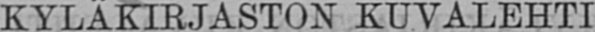KYLÄKIRJASTON KUVALEHTI.
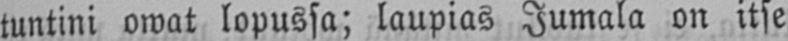tuntini owat lopussa; laupias Jumala on itse
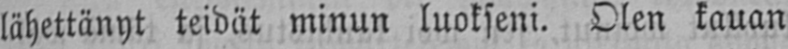lähettänyt teidät minun luokseni. Olen kauan
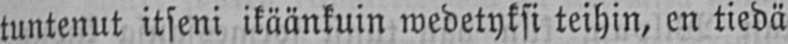tuntenut itseni ikäänkuin wedetyksi teihin, en tiedä
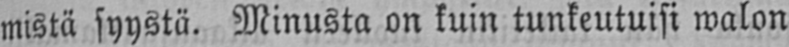mistä syystä. Minusta on kuin tunkeutuisi walon
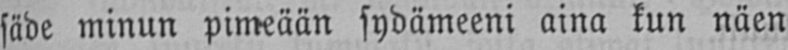säde minun pimeään sydämeeni aina kun näen
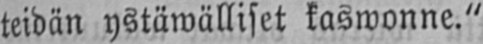teidän ystäwälliset kaswonne."
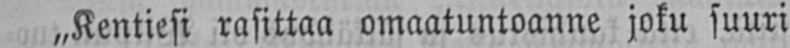„Kentiesi rasittaa omaatuntoanne joku suuri
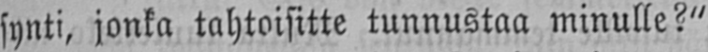synti, jonka tahtoisitte tunnustaa minulle?"
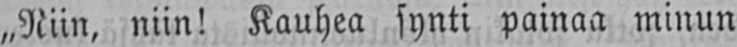„Niin, niin! Kauhea synti painaa minun
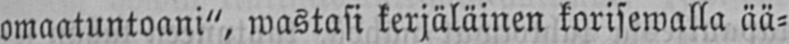omaatuntoani", wastasi kerjäläinen korisewalla ää-
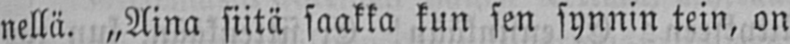nellä. „Aina siitä saakka kun sen synnin tein, on
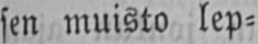sen muisto lep-
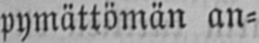pymättömän an-
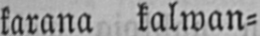karana kalwan-
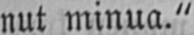nut minua."
